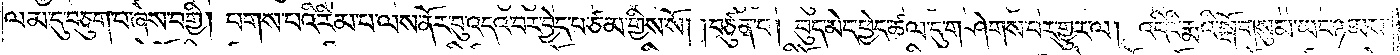ལམ་དུ་བཅུག་པ་ཞེས་བགྱི། པགས་པའི་རིམ་པ་ལས་ནོར་བུ་འདའ་བར་བྱེད་པ་ཙམ་གྱིས་སོ། །བཙུན་པ། བུད་མེད་ཕྱེད་ཚལ་དུ་གཤེགས་པར་གྱུར་ལ། འདིའི་རྨའི་སྒོ་གསུམ་ཡང་ཉམས་
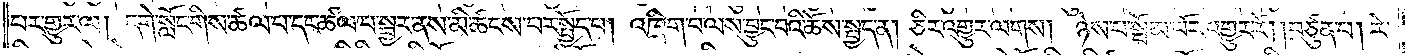པར་གྱུར་ལ། དགེ་སློང་གིས་ཚལ་བ་དང་ཚལ་བ་སྦྱར་ནས་མི་ཚངས་པར་སྤྱོད་པ། འཁྲིག་པ་ལས་བྱུང་བའི་ཆོས་སྤྱད་ན། ཅིར་འགྱུར་ལགས། ཉེས་པ་སྦོམ་པོར་འགྱུར་རོ། །བཙུན་པ། རེ་
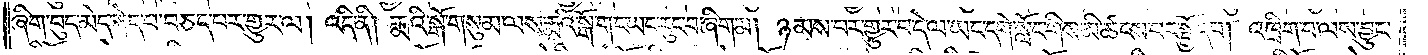ཞིག་བུད་མེད་རྐེད་པ་བཅད་པར་གྱུར་ལ། འདི་ནི། རྨའི་སྒོ་གསུམ་ལས་རྨའི་སྒོ་གང་ཡང་རུང་བ་ཞིག་མ། ཉམས་པར་གྱུར་བ་དེ་ལ་ཡང་དགེ་སློང་གིས་མི་ཚངས་པར་སྤྱོད་པ། འཁྲིག་པ་ལས་བྱུང་
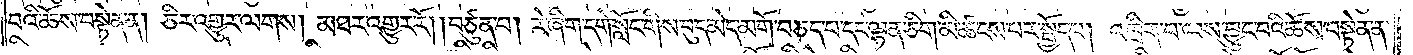བའི་ཆོས་བསྟེན་ན། ཅིར་འགྱུར་ལགས། མཐར་འགྱུར་རོ། །བཙུན་པ། རེ་ཞིག་དགེ་སློང་གིས་བུད་མེད་མགོ་བཅད་པ་དང་ལྷན་ཅིག་མི་ཚངས་པར་སྤྱོད་པ། འཁྲིག་པ་ལས་བྱུང་བའི་ཆོས་བསྟེན་ན་
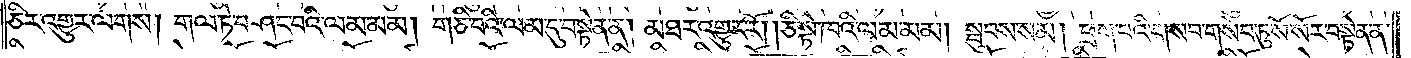ཅིར་འགྱུར་ལགས། གལ་ཏེ་བཤང་བའི་ལམ་མམ། གཅི་བའི་ལམ་དུ་བསྟེན་ན། མཐར་འགྱུར་རོ། །ཅི་སྟེ་ཁའི་ལམ་མམ། སྦུབས་སམ། ཕྲག་པའི་གསབ་གསེབ་ཏུ་སོ་སོར་བསྟེན་ན་
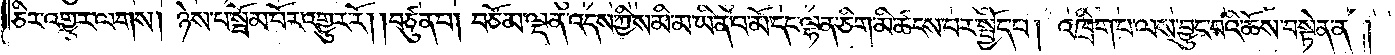ཅིར་འགྱུར་ལགས། ཉེས་པ་སྦོམ་པོར་འགྱུར་རོ། །བཙུན་པ། བཅོམ་ལྡན་འདས་ཀྱིས་མི་མ་ཡིན་པ་མོ་དང་ལྷན་ཅིག་མི་ཚངས་པར་སྤྱོད་པ། འཁྲིག་པ་ལས་བྱུང་བའི་ཆོས་བསྟེན་ན།
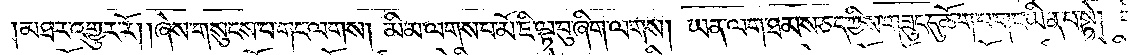།མཐར་འགྱུར་རོ། །ཞེས་གསུངས་པ་གང་ལགས། མི་མ་ལགས་པ་མོ་ཇི་ལྟ་བུ་ཞིག་ལགས། ཡན་ལག་ཐམས་ཅད་ཀྱིས་གཟུང་དུ་ཆོག་པ་གང་ཡིན་པ་སྟེ།_(དེ་)
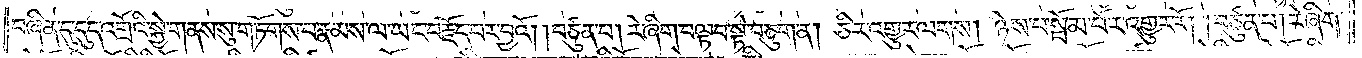བཞིན་དུ་དུད་འགྲོའི་སྐྱེ་གནས་སུ་གཏོགས་པ་རྣམས་ལ་ཡང་བརྗོད་པར་བྱའོ། །བཙུན་པ། རེ་ཞིག་བལྟ་བ་སྟེ་བཅུག་ན། ཅིར་འགྱུར་ལགས། ཉེས་པ་སྦོམ་པོར་འགྱུར་རོ། །བཙུན་པ། རེ་ཞིག་
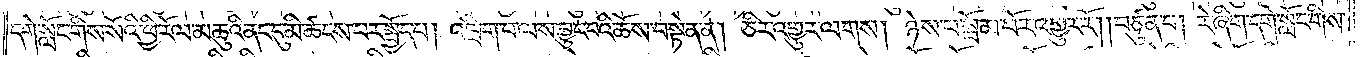དགེ་སློང་གིས་སོའི་ཕྱི་རོལ་མཆུའི་ནང་དུ་མི་ཚངས་པར་སྤྱོད་པ། འཁྲིག་པ་ལས་བྱུང་བའི་ཆོས་བསྟེན་ན། ཅིར་འགྱུར་ལགས། ཉེས་པ་སྦོམ་པོར་འགྱུར་རོ། །བཙུན་པ། རེ་ཞིག་དགེ་སློང་གིས་
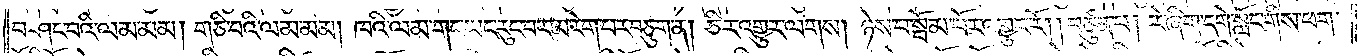བཤང་བའི་ལམ་མམ། གཅི་བའི་ལམ་མམ། ཁའི་ལམ་གང་ཡང་རུང་བར་མ་རེག་པར་བཅུག་ན། ཅིར་འགྱུར་ལགས། ཉེས་པ་སྦོམ་པོར་འགྱུར་རོ། །བཙུན་པ། རེ་ཞིག་དགེ་སློང་གིས་ཕག་
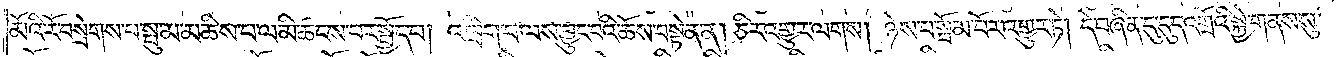མོའི་རོ་བསྲེགས་པ་སྤུ་མ་མཆིས་པ་ལ་མི་ཚངས་པར་སྤྱོད་པ། འཁྲིག་པ་ལས་བྱུང་བའི་ཆོས་བསྟེན་ན། ཅིར་འགྱུར་ལགས། ཉེས་པ་སྦོམ་པོར་འགྱུར་ཏེ། དེ་བཞིན་དུ་དུད་འགྲོའི་སྐྱེ་གནས་སུ་
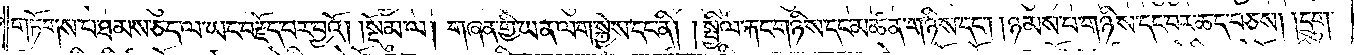གཏོགས་པ་ཐམས་ཅད་ལ་ཡང་བརྗོད་པར་བྱའོ། །སྡོམ་ལ། གཞན་གྱི་ཡན་ལག་སྐྱེས་དང་ནི། །སྤྱིལ་རྐང་གཉིས་དང་མཚན་གཉིས་དང༌། །ཉམས་པ་གཉིས་དང་བར་ཆད་བཅས། །དྲུག་
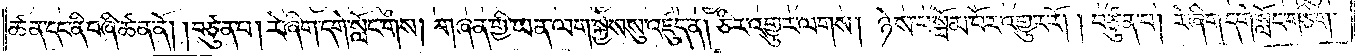ཚན་དང་ནི་བཞི་ཚན་ནོ། །བཙུན་པ། རེ་ཞིག་དགེ་སློང་གིས། གཞན་གྱི་ཡན་ལག་སྐྱེས་སུ་འཛུད་ན། ཅིར་འགྱུར་ལགས། ཉེས་པ་སྦོམ་པོར་འགྱུར་རོ། །བཙུན་པ། རེ་ཞིག་དགེ་སློང་གཅིག་
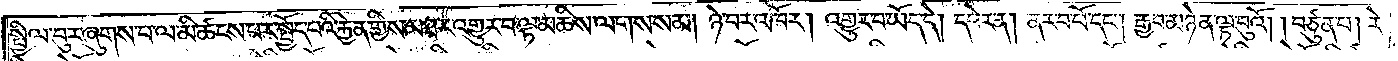སྤྱིལ་བུར་ཞུགས་པ་ལ་མི་ཚངས་པར་སྤྱོད་པའི་རྐྱེན་གྱིས་མཐར་འགྱུར་བ་ལྟ་མཆིས་ལགས་སམ། ཉེ་བར་འཁོར། འགྱུར་བ་ཡོད་དེ། དཔེར་ན། ནར་བ་པོ་དང༌། རྒྱབ་མཉེན་ལྟ་བུའོ། །བཙུན་པ། རེ་
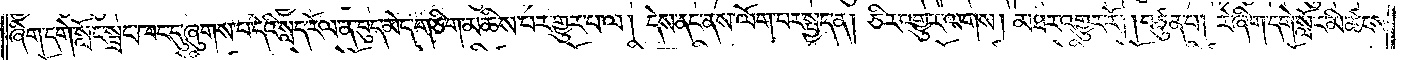ཞིག་དགེ་སློང་སྦྲང་ཁང་དུ་ཞུགས་པ་དེའི་སླད་རོལ་ན་བུད་མེད་གཅིག་མཆིས་པར་གྱུར་པ་ལ། དེས་ནང་ནས་ལོག་པར་སྤྱད་ན། ཅིར་འགྱུར་ལགས། མཐར་འགྱུར་རོ། །བཙུན་པ། རེ་ཞིག་དགེ་སློང་མི་ཚངས་
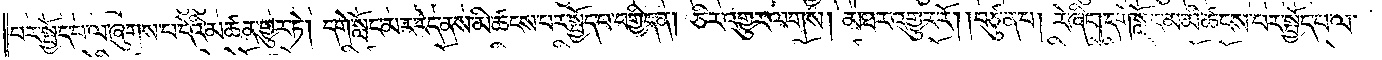པར་སྤྱོད་པ་ལ་ཞུགས་པ་དེའི་མཚན་གྱུར་ཏེ། དགེ་སློང་མར་རེད་ནས་མི་ཚངས་པར་སྤྱོད་པ་བགྱིད་ན། ཅིར་འགྱུར་ལགས། མཐར་འགྱུར་རོ། །བཙུན་པ། རེ་ཞིག་དགེ་སློང་མ་མི་ཚངས་པར་སྤྱོད་པ་ལ་
